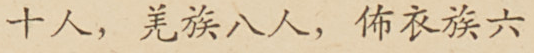十人，羌族八人，佈衣族六
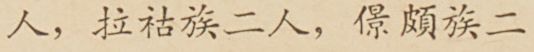人，拉祜族二人，景頗族二
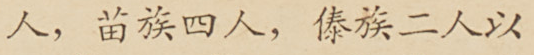人，苗族四人，傣族二人以
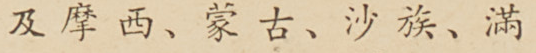及，摩西、蒙古、沙族、滿
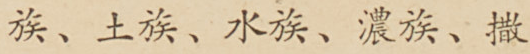族、土族、水族、濃族、撒
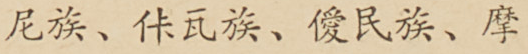尼族、佧瓦族、僾民族、摩
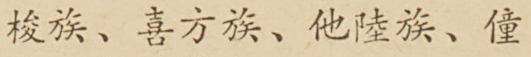梭族、喜方族、他陸族、僮
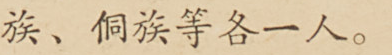族、侗族等各一人。
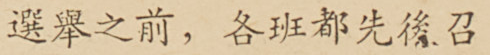選舉之前，各班都先後召
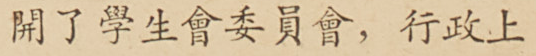開了學生會委員會，行政上
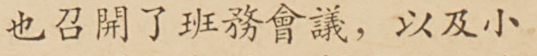也召開了班務會議，以及小
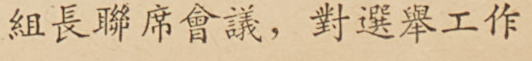組長聯席會議，對選舉工作
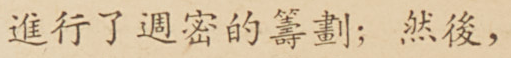進行了週密的籌劃；然後，
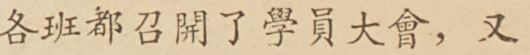各班都召開了學員大會，又
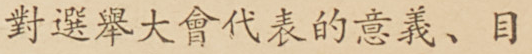對選舉大會代表的意義、目
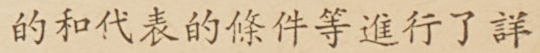的和代表的條件等進行了詳
